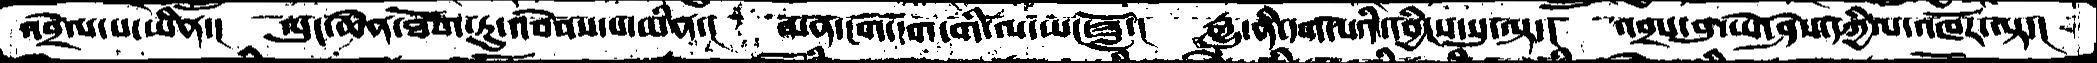འབྲེལ་པ་ཡིན་།  ལུང་ཆེན་ཐོབ་ཏུ་འབེབས་པ་མིན་།  མན་ངག་དག་གི་ལ་ཡང་ཟློ་།  རྒྱུ་ནི་དག་པའི་དབྱིངས་སུ་ལྟ་།  འབྲས་བུ་ཡེ་ཤེས་དཀྱིལ་འཁོར་ལྟ་།
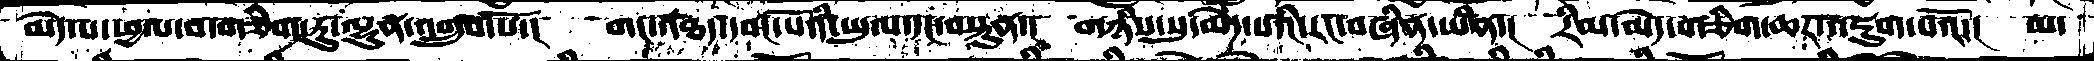མེད་པ་ཕྱལ་བ་གཅིག་ཏུ་ལྷུན་འགྲུབ་པོ་།  གང་འཐད་དབང་པོའི་ཡུལ་དང་བསྟུན་།  གཉིས་སུ་མེད་པའི་རང་བཞིན་ཡིན་།  རིམ་མེད་གཅིག་ཆར་འཇུག་པའོ་།  མ་
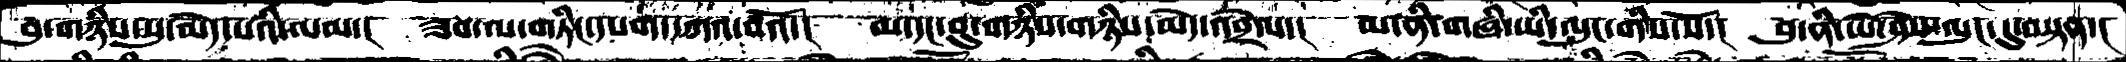བུ་གཉིས་སུ་མེད་པའི་ལམ་།  ཟབ་ལ་གཏིང་དཔག་དཀའ་བའོ་།  མ་དང་བུ་གཉིས་གཉིས་མེད་འབྲེལ་།  མ་ནི་གཞི་ཡི་ལུང་གིས་སོ་།  བུ་ནི་ཡེ་ཤེས་ལུང་དུ་བསྟན་།
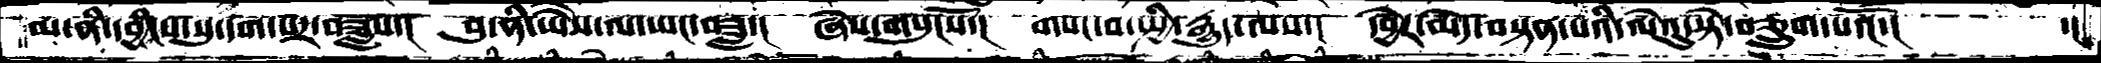མ་ནི་དབྱིངས་སུ་དག་པར་བཟླས་།  བུ་ནི་ཡཻས་ལ་ཡང་བཟླ་།  ཞེས་གསུངསོ་།  གསང་བ་སྤྱི་རྒྱུད་ལས་།  དབྱེར་མེད་བསྟན་པའི་ལེའུ་སྟེ་བཅྲུག་པའོ་།   ་།
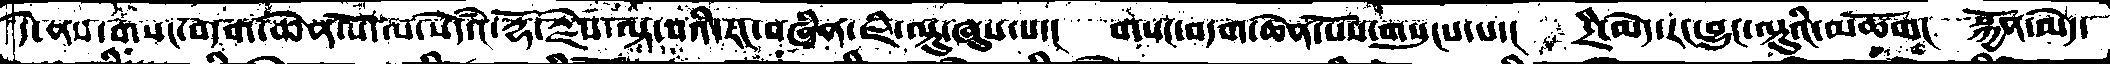དེ་ནས་གསང་བདག་ཆེན་པོ་ལ་སེཾདའ་རྡོ་རྗེས་ལྟ་བའི་རང་བཞིན་ཇི་ལྟུ་ཞུས་པ་།  གསང་བདག་ཆེན་པོས་གསུངས་པ་།  དྲི་མེད་རང་བྱུང་ལྟུའི་མཆོག།  སྐྱོན་མེད་
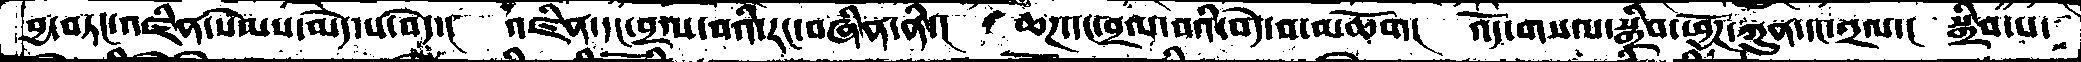བྱ་བཏང་འཛིན་སེམས་མེད་པ་བདེ་།  འཛིན་དང་བྲལ་བའི་རང་བཞིན་ནི་།  ཆཌ་དང་བྲལ་བའི་བདེ་བ་མཆོག།  འོད་གསལ་སྒྲིབ་ཕྱོཌ་ཀུན་དང་བྲལ་།  སྒྲིབ་པ་
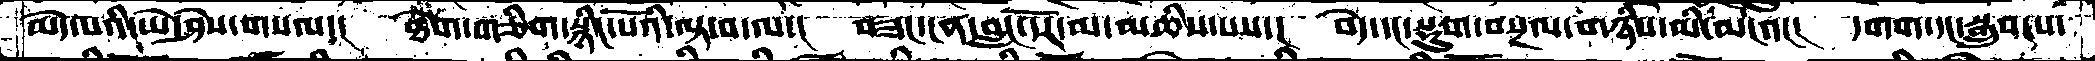མེད་པའི་ཡེ་ཤེས་གསལ་།  ཐེག་གཅིག་སྙིང་པོའི་ལྟ་བ་ལ་།  བཟང་ངན་བླང་དོར་མ་མཆིས་པས་།  བདེ་དང་སྡུག་བསྔལ་གཉིས་མི་མངའ་།  དགག་དང་སྒྲུབ་པ་
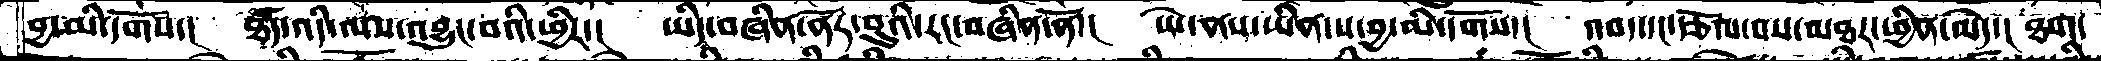བྱ་མི་དགོས་།  ཐཾད་འདི་ལས་འབྱུང་བའི་ཕྱིར་།  ཡིད་བཞིན་ནོར་བུའི་རང་བཞིན་ནོ་།  ཡེ་ནས་ཡིན་པ་བྱ་མི་དགོས་།  འབད་དང་རྩོལ་བས་མཐར་ཕྱིན་མེད་།  ཐག་
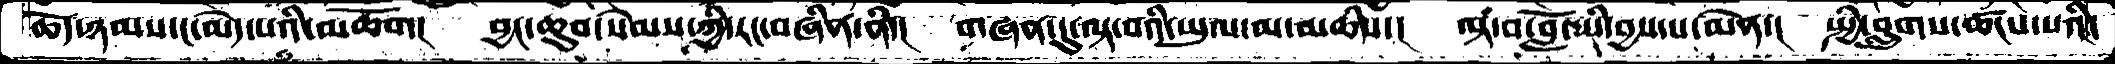ཆོད་ཉམས་ང་མེད་པའི་མཆོག།  བྱང་ཆུབ་སེམས་ཀྱི་རང་བཞིན་ནི་།  གཞན་དུ་ལྟ་བའི་ཡུལ་མ་མཆིས་།  ལྟ་བ་བློ་ཡི་བྱས་པ་མེན་།  སྤྱི་བླུགས་ཚངས་པའི་
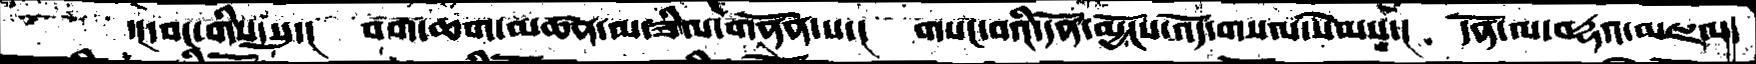་།དབང་གིས་སུ་།  བག་ཆག་མཚན་མ་ཟིལ་གནོན་པ་།  གསང་བའི་དོན་མྱོངས་འོད་གསལ་སེམས་།  དོན་ལ་བརྡའ་མཇལ་
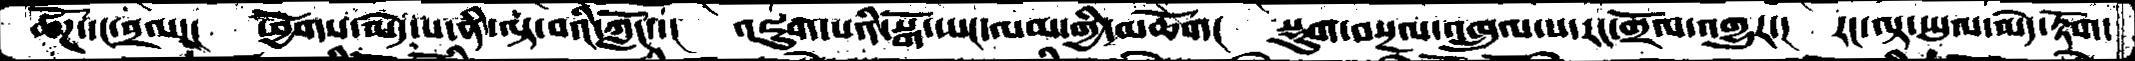ཚོཌ་དང་བྲལ་།  ཕྱོགས་མེད་པ་ནི་ལྟ་བའི་ཀློང་་།  འཇུག་པའི་སྒོ་ཡང་ལམ་གྱི་མཆོག།  སྡུག་བསྔལ་འཁྲུལ་པ་རང་གྲོལ་འགྱུར་།  རང་ལྟ་ཡུལ་མེད་རྟོག་
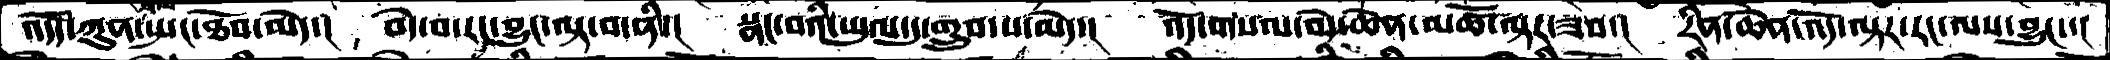འོདད་ཀུན་སྤང་ཐོབ་མེད་།  བདེ་བ་རང་བྱུང་ལྟ་བ་ནི་།  སྣང་བའི་ཡུལ་དུ་གྲུབ་པ་མེད་།  འོད་གསལ་བདེ་ཆེན་མཚོ་ལྟར་ཟབ་།  རིན་ཆེན་འོད་ལྟར་རང་ལས་བྱུང་།
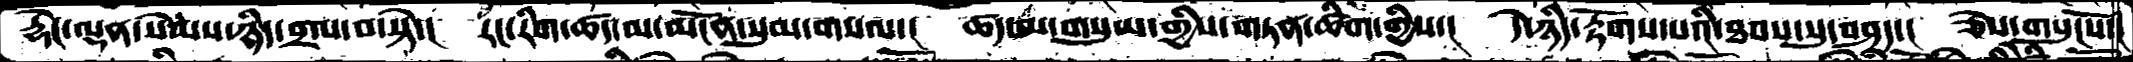རྡེང་ལྡན་སེམས་ཉིད་བྲལ་བ་སྟེ་།  རང་རིག་ཚད་མ་མངོན་སུམ་གསལ་།  ཚད་མ་གསུམ་གྱིས་གཏན་ཚིག་གྱིས་།  དེ་ཉིད་རྟོགས་པའི་ཐབས་སུ་བཤད་།  ཅེས་གསུངསོ་།
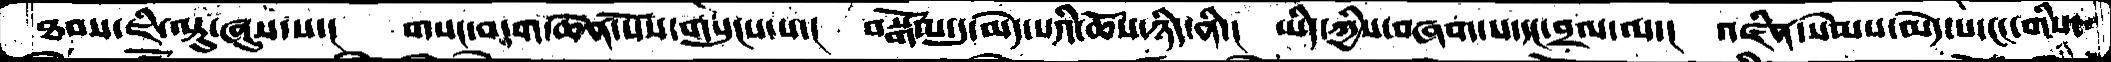ཐབས་ཇི་ལྟུ་ཞུས་པ་།  གསང་བདག་ཆེན་པོས་གསུངས་པ་།  བསྒོམ་དུ་མེད་པའི་ཆོས་ཉིད་ནི་།  ཡིད་ཀྱིས་བཞག་པ་དང་བྲལ་ལ་།  འཛིན་སེམས་མེད་པ་ངང་གིས་
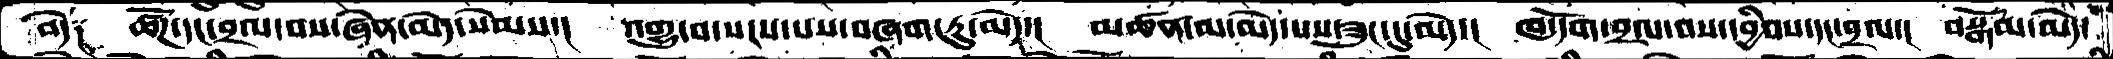བདེ༑  ཚོཌ་དང་བྲལ་བས་ཞེན་མེད་སེམས་།  འགྱུ་བ་སངས་པས་བཞག་ཏུ་མེད་།  མཚན་མ་མེད་པས་ཟུང་དུ་མེད་།  ཁ་དོག་བྲལ་བས་དབྱིབས་དང་བྲལ་།  བསྒོམ་མེད་
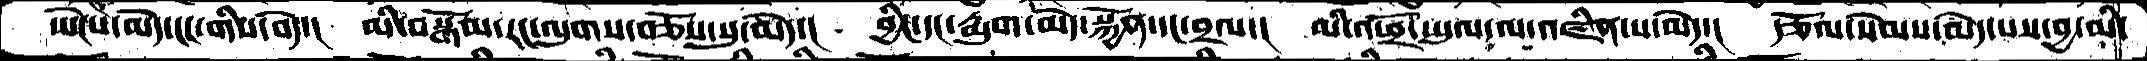ཡེངས་མེད་ངང་གིས་བདེ་།  མི་བསྒོམ་རང་ལུགས་བཅོས་སུ་མེད་།  བྱིང་དང་རྨུག་མེད་སྐྱོན་དང་བྲལ་།  མི་འཕྲོ་ཡུལ་ལ་འཛིན་པ་མེད་།  རྩོལ་སེམས་མེད་པས་བྱ་མི་
